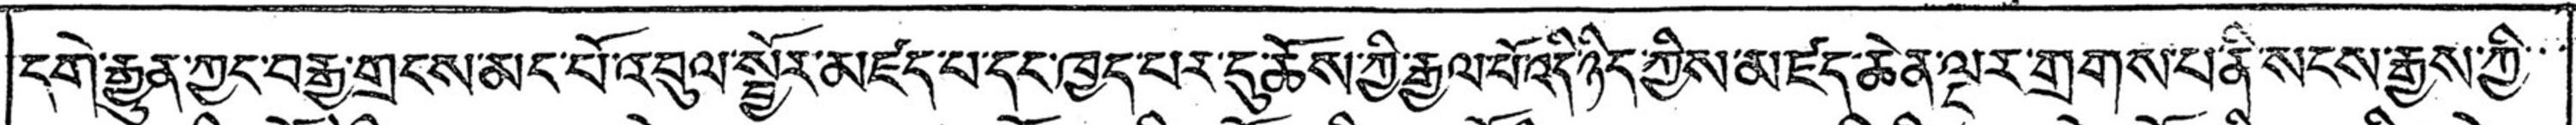དགེ་རྒྱུན་ཀྱང་བརྒྱ་གྲངས་མང་པོ་འབུལ་སྦྱོར་མཛད་པ་དང་ཁྱད་པརདུ་ཆོས་ཀྱི་རྒྱལ་པོ་འདི་ཉིད་ཀྱིས་མཛད་ཆེན་ལྔར་གྲགས་པ་ནི་སངས་རྒྱས་ཀྱི་་་
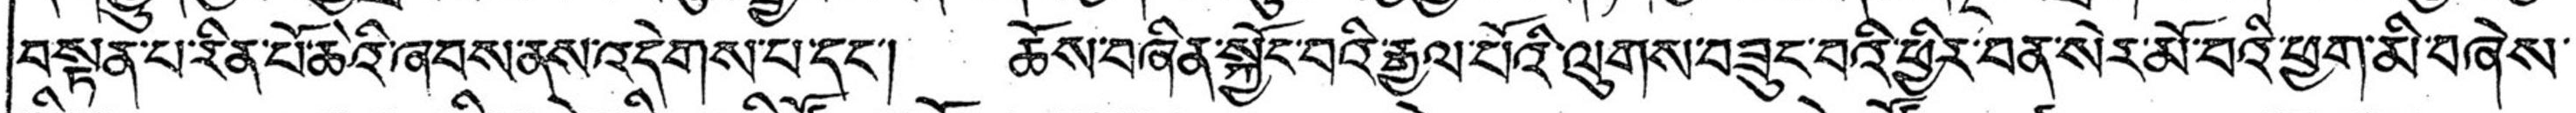བསྟན་པ་རིན་པོཆིའི་ཞབས་ནས་འདེགས་པ་དང་། ཆོས་བཞིན་སྐྱོང་བའི་རྒྱལ་པོའི་ལུགས་བཟུང་བའི་ཕྱིར་བན་སེར་མོ་བའི་ཕྱག་མི་བཞེས་་
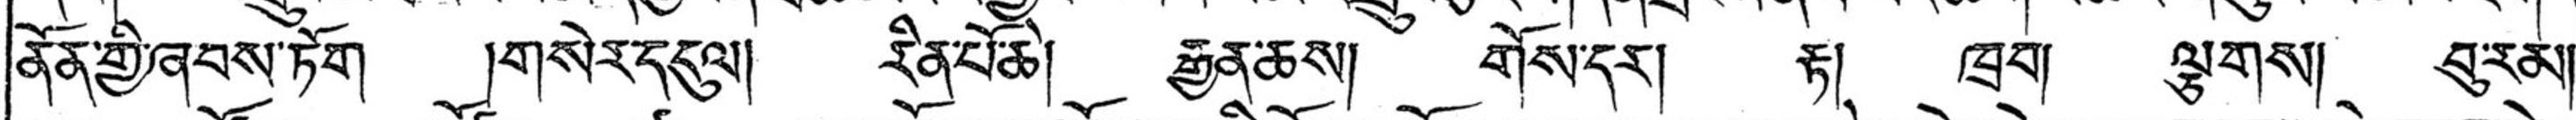ནོན་གྱི་ཞབས་ཏོག །གསེར་དངུལ། རིན་པཆི། རྒྱན་ཆས། གོས་དར། རྟ། ཁྲབ། ལྕགས། བུ་རམ།
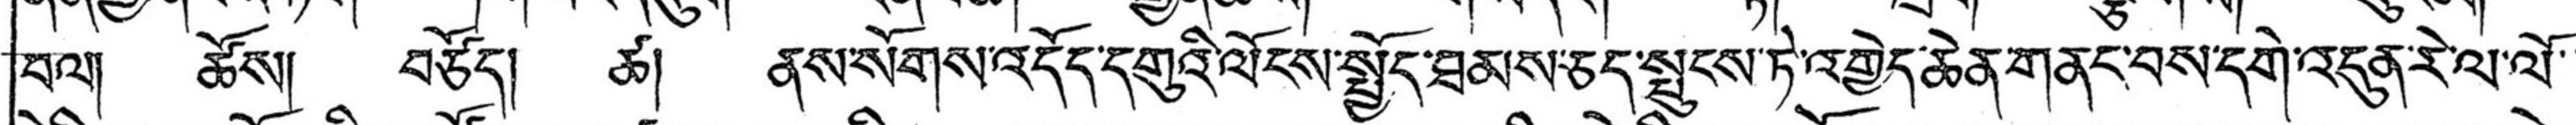བལ། ཚོས། བཙོད། ཚ། ནས་སོགས་འདོད་དགུའི་ལོངས་སྤྱོད་ཐམས་ཅད་སྤུངས་ཏི་འགྱེད་ཆེན་གནང་བས་དགེ་འདུན་རེ་ལ་ལོ་་
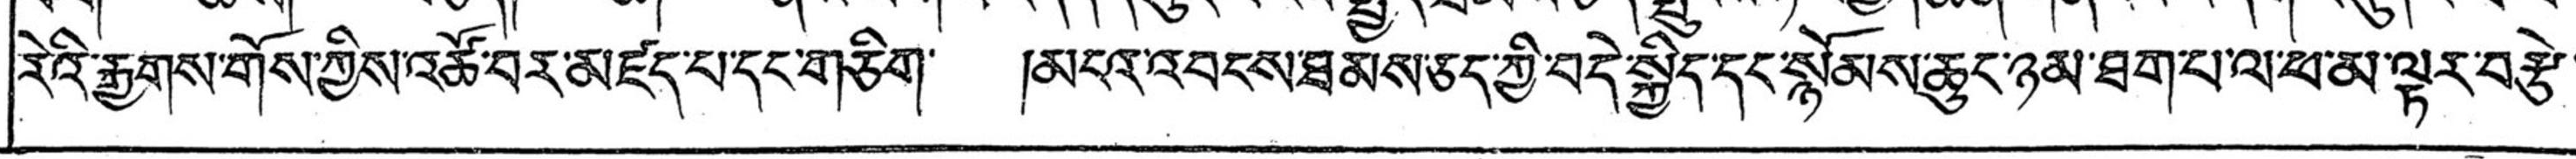རེའི་རྒྱགས་གོས་ཀྱིས་འཚོ་བར་མཛད་པ་དང་གཅིག་ །མདངའ་འབངས་ཐམས་ཅད་ཀྱི་བདེ་སྐྱིད་དང་སྙོམས་ཆུང་ཉམ་ཐག་པ་ལ་ཕ་མ་ལྟར་བརྩེ་
